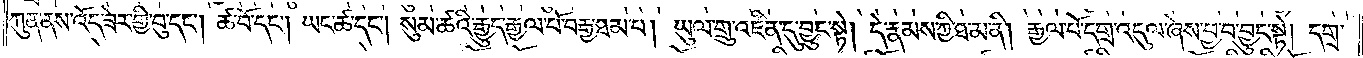ཀུན་ནས་འོད་ཟེར་གྱི་བུ་དང༌། ཚ་བོ་དང༌། ཡང་ཚ་དང༌། སུམ་ཆའི་རྒྱུད་རྒྱལ་པོ་བརྒྱ་ཐམ་པ། ཡུལ་གྲུ་འཛིན་དུ་བྱུང་སྟེ། དེ་རྣམས་ཀྱི་ཐ་མ་ནི། རྒྱལ་པོ་དགྲ་འདུལ་ཞེས་བྱ་བ་བྱུང་སྟེ། དགྲ་
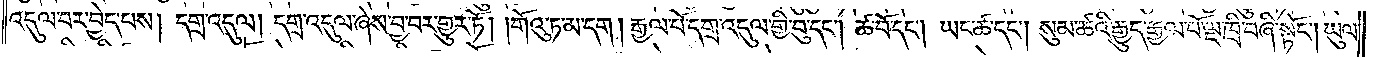འདུལ་བར་བྱེད་པས། དགྲ་འདུལ། དགྲ་འདུལ་ཞེས་བྱ་བར་གྱུར་ཏོ། །གོའུ་ཏ་མ་དག །རྒྱལ་པོ་དགྲ་འདུལ་གྱི་བུ་དང༌། ཚ་བོ་དང༌། ཡང་ཚ་དང༌། སུམ་ཚའི་རྒྱུད་རྒྱལ་པོ་ལྔ་ཁྲི་བཞི་སྟོང༌། ཡུལ་
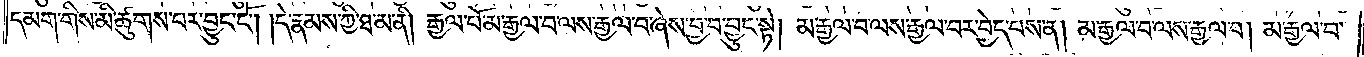དམག་གིས་མི་ཚུགས་པར་བྱུང་ངོ༌། །དེ་རྣམས་ཀྱི་ཐ་མ་ནི། རྒྱལ་པོ་མ་རྒྱལ་བ་ལས་རྒྱལ་བ་ཞེས་བྱ་བ་བྱུང་སྟེ། མ་རྒྱལ་བ་ལས་རྒྱལ་བར་བྱེད་པས་ན། མ་རྒྱལ་བ་ལས་རྒྱལ་བ། མ་རྒྱལ་བ་
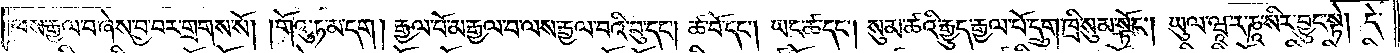ལས་རྒྱལ་བ་ཞེས་བྱ་བར་གྲགས་སོ། །གོའུ་ཏ་མ་དག །རྒྱལ་པོ་མ་རྒྱལ་བ་ལས་རྒྱལ་བའི་བུ་དང༌། ཚ་བོ་དང༌། ཡང་ཚ་དང༌། སུམ་ཚའི་རྒྱུད་རྒྱལ་པོ་དྲུག་ཁྲི་སུམ་སྟོང༌། ཡུལ་ཝཱ་ར་ཎཱ་སིར་བྱུང་སྟེ། དེ་
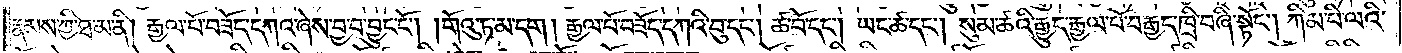རྣམས་ཀྱི་ཐ་མ་ནི། རྒྱལ་པོ་བཟོད་དཀའ་ཞེས་བྱ་བ་བྱུང་ངོ༌། །གོའུ་ཏ་མ་དག །རྒྱལ་པོ་བཟོད་དཀའི་བུ་དང༌། ཚ་བོ་དང༌། ཡང་ཚ་དང༌། སུམ་ཚའི་རྒྱུད་རྒྱལ་པོ་བརྒྱད་ཁྲི་བཞི་སྟོང༌། ཀིམ་པི་ལའི་
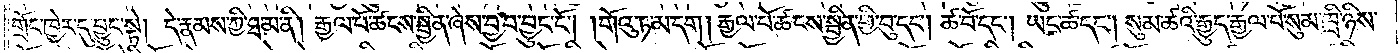གྲོང་ཁྱེར་དུ་བྱུང་སྟེ། དེ་རྣམས་ཀྱི་ཐ་མ་ནི། རྒྱལ་པོ་ཚངས་སྦྱིན་ཞེས་བྱ་བ་བྱུང་ངོ༌། །གོའུ་ཏ་མ་དག །རྒྱལ་པོ་ཚངས་བྱིན་གྱི་བུ་དང༌། ཚ་བོ་དང༌། ཡང་ཚ་དང༌། སུམ་ཚའི་རྒྱུད་རྒྱལ་པོ་སུམ་ཁྲི་ཉིས་
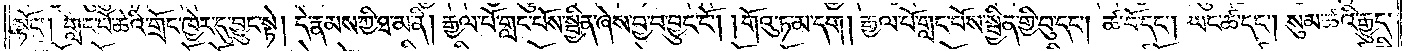སྟོང༌། གླང་པོ་ཆེའི་གྲོང་ཁྱེར་དུ་བྱུང་སྟེ། དེ་རྣམས་ཀྱི་ཐ་མ་ནི། རྒྱལ་པོ་གླང་པོས་སྦྱིན་ཞེས་བྱ་བ་བྱུང་ངོ༌། །གོའུ་ཏ་མ་དག །རྒྱལ་པོ་གླང་པོས་སྦྱིན་གྱི་བུ་དང༌། ཚ་བོ་དང༌། ཡང་ཚ་དང༌། སུམ་ཚའི་རྒྱུད་
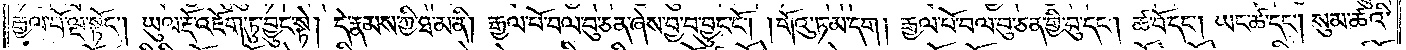རྒྱལ་པོ་ལྔ་སྟོང༌། ཡུལ་རྡོ་འཇོག་ཏུ་བྱུང་སྟེ། དེ་རྣམས་ཀྱི་ཐ་མ་ནི། རྒྱལ་པོ་བལ་བུ་ཅན་ཞེས་བྱ་བ་བྱུང་ངོ༌། །གོའུ་ཏ་མ་དག །རྒྱལ་པོ་བལ་བུ་ཅན་གྱི་བུ་དང༌། ཚ་བོ་དང༌། ཡང་ཚ་དང༌། སུམ་ཚའི་
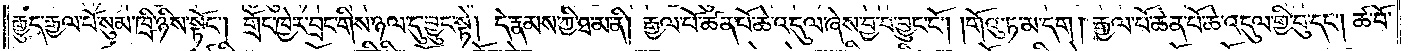རྒྱུད་རྒྱལ་པོ་སུམ་ཁྲི་ཉིས་སྟོང༌། གྲོང་ཁྱེར་བྲང་གིས་ཉལ་དུ་བྱུང་སྟེ། དེ་རྣམས་ཀྱི་ཐ་མ་ནི། རྒྱལ་པོ་ཚན་པོ་ཆེ་འདུལ་ཞེས་བྱ་བ་བྱུང་ངོ༌། །གོའུ་ཏ་མ་དག། རྒྱལ་པོ་ཆེན་པོ་ཆེ་འདུལ་གྱི་བུ་དང༌། ཚ་བོ་
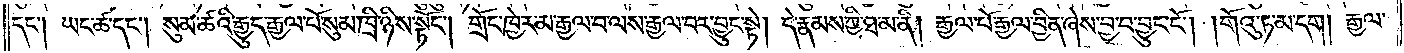དང༌། ཡང་ཚ་དང༌། སུམ་ཚའི་རྒྱུད་རྒྱལ་པོ་སུམ་ཁྲི་ཉིས་སྟོང༌། གྲོང་ཁྱེར་མ་རྒྱལ་བ་ལས་རྒྱལ་བར་བྱུང་སྟེ། དེ་རྣམས་ཀྱི་ཐ་མ་ནི། རྒྱལ་པོ་རྒྱལ་བྱིན་ཞེས་བྱ་བ་བྱུང་ངོ༌། །གོའུ་ཏ་མ་དག །རྒྱལ་
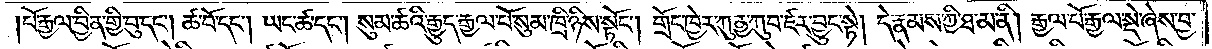།པོ་རྒྱལ་བྱིན་གྱི་བུ་དང༌། ཚ་བོ་དང༌། ཡང་ཚ་དང༌། སུམ་ཚའི་རྒྱུད་རྒྱལ་པོ་སུམ་ཁྲི་ཉིས་སྟོང༌། གྲོང་ཁྱེར་ཀུ་ནྱ་ཀུབ་ཛར་བྱུང་སྟེ། དེ་རྣམས་ཀྱི་ཐ་མ་ནི། རྒྱལ་པོ་རྒྱལ་སྡེ་ཞེས་བྱ་
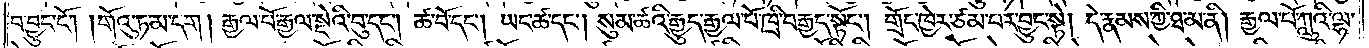བ་བྱུང་ངོ༌། །གོའུ་ཏ་མ་དག །རྒྱལ་པོ་རྒྱལ་སྡེའི་བུ་དང༌། ཚ་བོ་དང༌། ཡང་ཚ་དང༌། སུམ་ཚའི་རྒྱུད་རྒྱལ་པོ་ཁྲི་བརྒྱད་སྟོང༌། གྲོང་ཁྱེར་ཙམ་པར་བྱུང་སྟེ། དེ་རྣམས་ཀྱི་ཐ་མ་ནི། རྒྱལ་པོ་ཀླུའི་ལྷ་
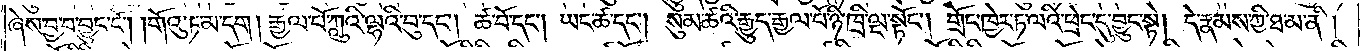ཞེས་བྱ་བ་བྱུང་ངོ༌། །གོའུ་ཏ་མ་དག །རྒྱལ་པོ་ཀླུའི་ལྷའི་བུ་དང༌། ཚ་བོ་དང༌། ཡང་ཚ་དང༌། སུམ་ཚའི་རྒྱུད་རྒྱལ་པོ་ཉི་ཁྲི་ལྔ་སྟོང༌། གྲོང་ཁྱེར་ཏ་ལའི་ཕྲེང་དུ་བྱུང་སྟེ། དེ་རྣམས་ཀྱི་ཐ་མ་ནི།
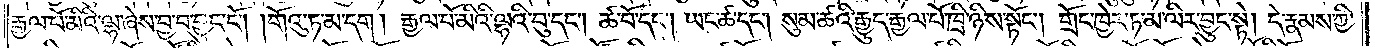རྒྱལ་པོ་མིའི་ལྷ་ཞེས་བྱ་བ་བྱུང་ངོ༌། །གོའུ་ཏ་མ་དག །རྒྱལ་པོ་མིའི་ལྷའི་བུ་དང༌། ཚ་བོ་དང༌། ཡང་ཚ་དང༌། སུམ་ཚའི་རྒྱུད་རྒྱལ་པོ་ཁྲི་ཉིས་སྟོང༌། གྲོང་ཁྱེར་ཏ་མ་ལིར་བྱུང་སྟེ། དེ་རྣམས་ཀྱི་
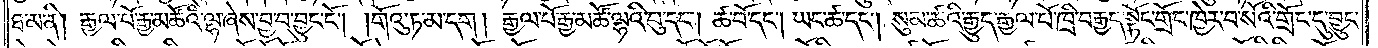ཐ་མ་ནི། རྒྱལ་པོ་རྒྱ་མཚོའི་ལྷ་ཞེས་བྱ་བ་བྱུང་ངོ༌། །གོའུ་ཏ་མ་དག །རྒྱལ་པོ་རྒྱ་མཚོ་ལྷའི་བུ་དང༌། ཚ་བོ་དང༌། ཡང་ཚ་དང༌། སུམ་ཚའི་རྒྱུད་རྒྱལ་པོ་ཁྲི་བརྒྱད་སྟོང་གྲོང་ཁྱེར་བ་སོའི་གྲོང་དུ་བྱུང་
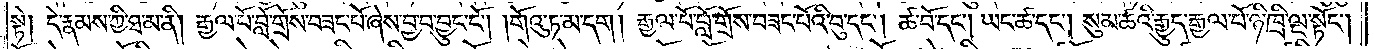སྟེ། དེ་རྣམས་ཀྱི་ཐ་མ་ནི། རྒྱལ་པོ་བློ་གྲོས་བཟང་པོ་ཞེས་བྱ་བ་བྱུང་ངོ༌། །གོའུ་ཏ་མ་དག །རྒྱལ་པོ་བློ་གྲོས་བཟང་པོའི་བུ་དང༌། ཚ་བོ་དང༌། ཡང་ཚ་དང༌། སུམ་ཚའི་རྒྱུད་རྒྱལ་པོ་ཉི་ཁྲི་ལྔ་སྟོང༌།
